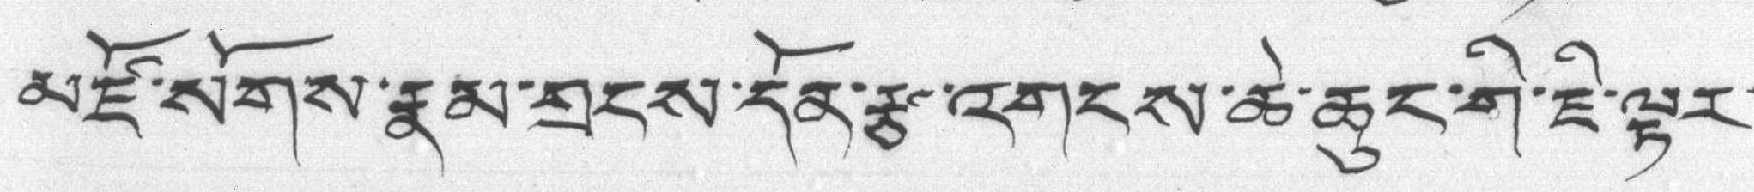མཛོ་སོགས་རྣམ་གྲངས་དོན་རྩ་འགངས་ཆེ་ཆུང་གི་ཇི་ལྟར་
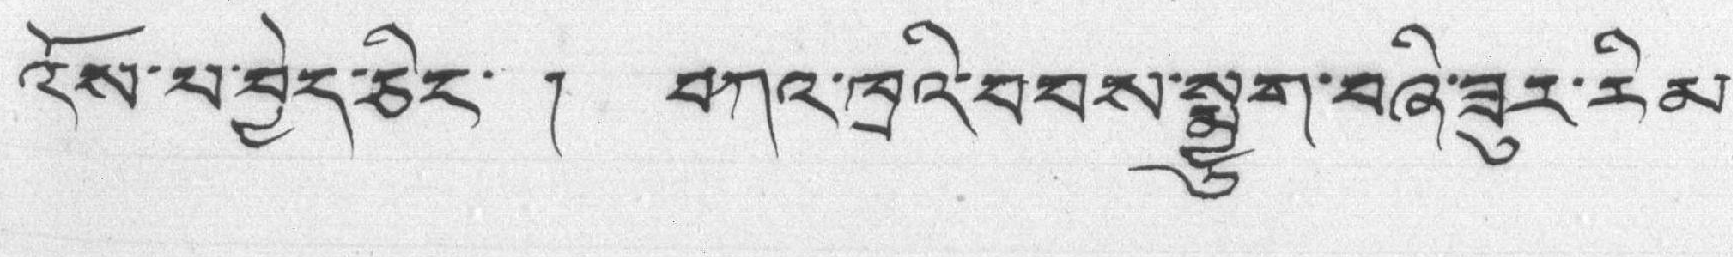འོས་པ་བྱེད་ཅིང་ ། བཀའ་ཁྲའི་བབས་སྨྱུག་བཞི་ཟུར་རིམ་
